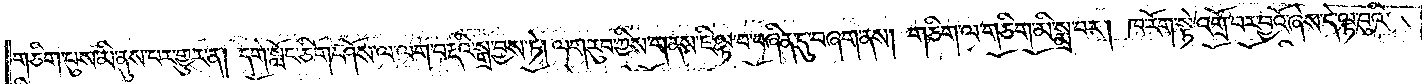གཅིག་པུས་མི་ནུས་པར་གྱུར་ན། དགེ་སློང་ཅིག་ཤོས་ལ་ལག་བརྡའི་སྒྲ་བྱས་ཏེ། ལག་རུབ་ཀྱིས་གནས་ཇི་ལྟ་བ་བཞིན་དུ་བཞག་ནས། གཅིག་ལ་གཅིག་མི་སྨྲ་བར། ཁ་རོག་སྟེ་འགྲོ་བར་བྱའོ་ཞེས་དེ་ལྟ་བུའི་
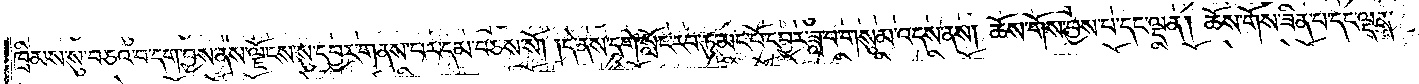ཁྲིམས་སུ་བཅའ་བ་དག་བྱས་ནས་ལྗོངས་སུ་དབྱར་གནས་པར་དམ་བཅས་སོ། །དེ་ནས་དགེ་སློང་རབ་ཏུ་མང་པོ་དབྱར་ཟླ་བ་གསུམ་འདས་ནས། ཆོས་གོས་བྱས་པ་དང་ལྡན། ཆོས་གོས་ཟིན་པ་དང་ལྡན་
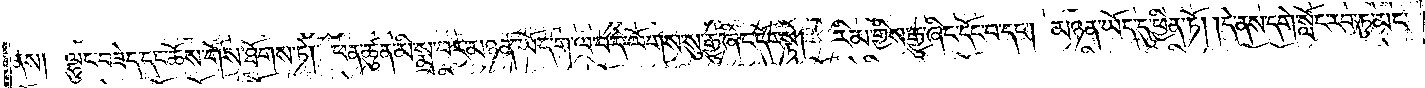ནས། ལྷུང་བཟེད་དང་ཆོས་གོས་ཐོགས་ཏེ། ཕན་ཚུན་མི་སྨྲ་བར་མཉན་ཡོད་ག་ལ་བ་དེ་ལོགས་སུ་རྒྱུ་ཞིང་དོང་སྟེ། རིམ་གྱིས་རྒྱུ་ཞིང་དོང་བ་དང༌། མཉན་ཡོད་དུ་ཕྱིན་ཏོ། །དེ་ནས་དགེ་སློང་རབ་ཏུ་མང་
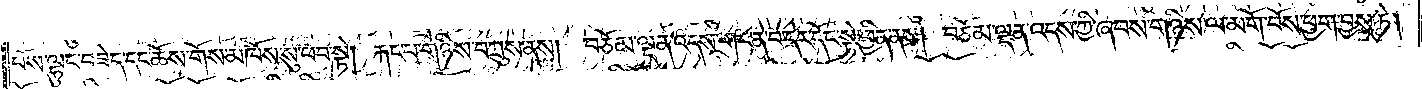པོས་ལྷུང་བཟེད་དང་ཆོས་གོས་མཁོས་སུ་ཕ་བ་སྟེ། རྐང་པ་གཉིས་བཀྲུས་ནས། བཅོམ་ལྡན་འདས་གང་ན་བ་དེར་དོང་སྟེ་ཕྱིན་ནས། བཅོམ་ལྡན་འདས་ཀྱི་ཞབས་གཉིས་ལ་མགོ་བོས་ཕྱག་བྱས་ཏེ།
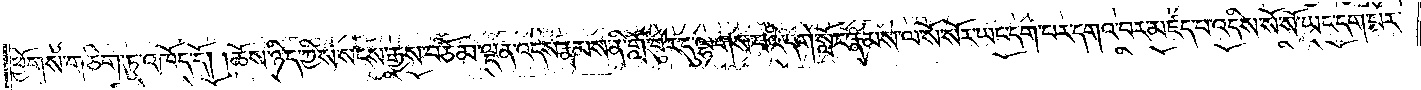ཕྱོགས་གཅིག་ཏུ་འཁོད་དོ། །ཆོས་ཉིད་ཀྱིས་སངས་རྒྱས་བཅོམ་ལྡན་འདས་རྣམས་ནི་གློ་བུར་དུ་ལྷགས་པའི་དགེ་སློང་རྣམས་ལ་སོ་སོར་ཡང་དག་པར་དགའ་བར་མཛད་པ་འདིས་སོ་སོ་ཡང་དག་པར་
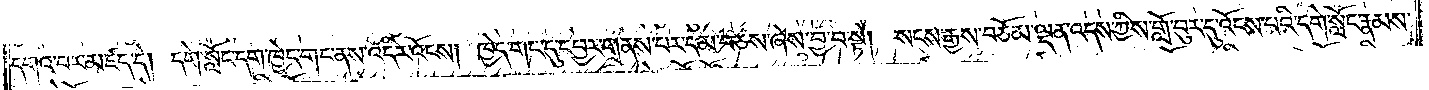དགའ་བར་མཛད་དེ། དགེ་སློང་དག་ཁྱེད་གང་ནས་འདིར་འོངས། ཁྱེད་གང་དུ་དབྱར་གནས་པར་དམ་བཅས་ཞེས་བྱ་བ་སྟེ། སངས་རྒྱས་བཅོམ་ལྡན་འདས་ཀྱིས་གློ་བུར་དུ་འོངས་པའི་དགེ་སློང་རྣམས་
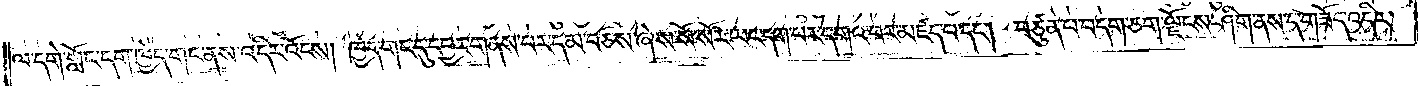ལ་དགེ་སློང་དག་ཁྱེད་གང་ནས་འདིར་འོངས། ཁྱེད་གང་དུ་དབྱར་གནས་པར་དམ་བཅས་ཞེས་སོ་སོར་ཡང་དག་པར་དགའ་བར་མཛད་པ་དང༌། བཙུན་པ་བདག་ཅག་ལྗོངས་ཤིག་ནས་ད་གཟོད་འདིར་
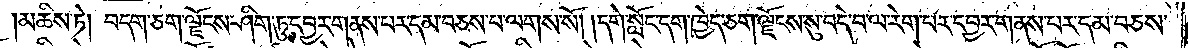མཆིས་ཏེ། བདག་ཅག་ལྗོངས་ཤིག་ཏུ་དབྱར་གནས་པར་དམ་བཅས་པ་ལགས་སོ། །དགེ་སློང་དག་ཁྱེད་ཅག་ལྗོངས་སུ་བདེ་བ་ལ་རེག་པར་དབྱར་གནས་པར་དམ་བཅས་
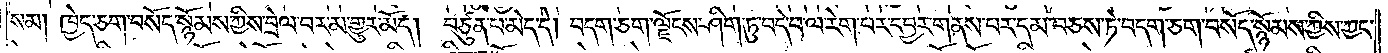སམ། ཁྱེད་ཅག་བསོད་སྙོམས་ཀྱིས་བྲེལ་བར་མ་གྱུར་མོད། བཙུན་པ་མེད་དེ། བདག་ཅག་ལྗོངས་ཤིག་ཏུ་བདེ་བ་ལ་རེག་པར་དབྱར་གནས་པར་དམ་བཅས་ཏེ་བདག་ཅག་བསོད་སྙོམས་ཀྱིས་ཀྱང་
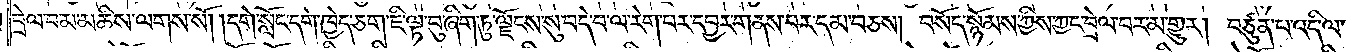བྲེལ་བ་མ་མཆིས་ལགས་སོ། །དགེ་སློང་དག་ཁྱེད་ཅག་ཇི་ལྟ་བུ་ཞིག་ཏུ་ལྗོངས་སུ་བདེ་བ་ལ་རེག་པར་དབྱར་གནས་པར་དམ་བཅས། བསོད་སྙོམས་ཀྱིས་ཀྱང་བྲེལ་བར་མ་གྱུར། བཙུན་པ་འདི་ལ་
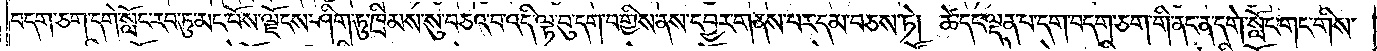བདག་ཅག་དགེ་སློང་རབ་ཏུ་མང་པོས་ལྗོངས་ཤིག་ཏུ་ཁྲིམས་སུ་བཅའ་བ་འདི་ལྟ་བུ་དག་བགྱིས་ནས་དབྱར་གནས་པར་དམ་བཅས་ཏེ། ཚེ་དང་ལྡན་པ་དག་བདག་ཅག་གི་ནང་ན་དགེ་སློང་གང་གིས་
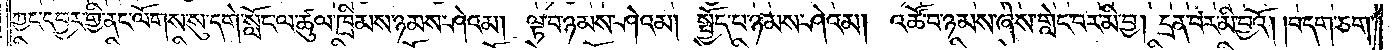ཀྱང་དབྱར་གྱི་ནང་ལོགས་སུ་དགེ་སློང་ལ་ཚུལ་ཁྲིམས་ཉམས་ཤེའམ། ལྟ་བ་ཉམས་ཤེའམ། སྤྱོད་པ་ཉམས་ཤེའམ། འཚོ་བ་ཉམས་ཞེས་གླེང་བར་མི་བྱ། དྲན་པར་མི་བྱའོ། །བདག་ཅག་
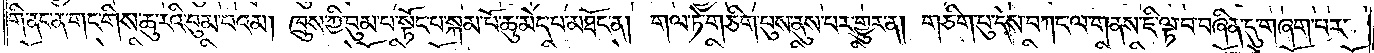གི་ནང་ན་གང་གིས་ཆུ་རའི་བུམ་པའམ། ཁྲུས་ཀྱི་བུམ་པ་སྟོང་པ་སྐམ་པོ་ཆུ་མེད་པ་མཐོང་ན། གལ་ཏེ་གཅིག་པུས་ནུས་པར་གྱུར་ན། གཅིག་པུ་དེས་བཀང་ལ་གནས་ཇི་ལྟ་བ་བཞིན་དུ་གཞག་པར་
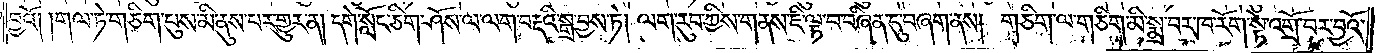བྱའོ། །གལ་ཏེ་གཅིག་པུས་མི་ནུས་པར་གྱུར་ན། དགེ་སློང་ཅིག་ཤོས་ལ་ལག་བརྡའི་སྒྲ་བྱས་ཏེ། ལག་རུབ་ཀྱིས་གནས་ཇི་ལྟ་བ་བཞིན་དུ་བཞག་ནས། གཅིག་ལ་གཅིག་མི་སྨྲ་བར་ཁ་རོག་སྟེ་འགྲོ་བར་བྱའོ་
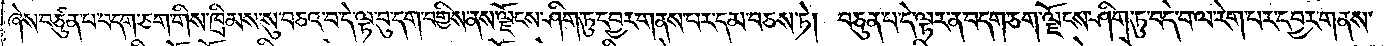ཞེས་བཙུན་པ་བདག་ཅག་གིས་ཁྲིམས་སུ་བཅའ་བ་དེ་ལྟ་བུ་དག་བགྱིས་ནས་ལྗོངས་ཤིག་ཏུ་དབྱར་གནས་པར་དམ་བཅས་ཏེ། བཅུན་པ་དེ་ལྟར་ན་བདག་ཅག་ལྗོངས་ཤིག་ཏུ་བདེ་བ་ལ་རེག་པར་དབྱར་གནས་
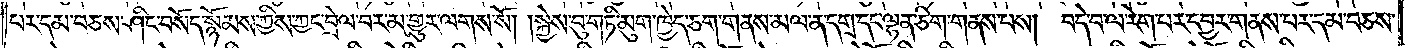པར་དམ་བཅས་ཤིང་བསོད་སྙོམས་ཀྱིས་ཀྱང་བྲེལ་བར་མ་གྱུར་ལགས་སོ། །སྐྱེས་བུ་གཏི་མུག་ཁྱེད་ཅག་གནས་མལ་ན་དགྲ་དང་ལྷན་ཅིག་གནས་པས། བདེ་བ་ལ་རེག་པར་དབྱར་གནས་པར་དམ་བཅས་
